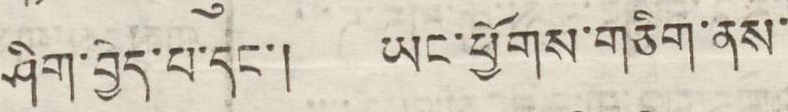ཤིག་བྱེད་པ་དང་། ཡང་ཕྱོགས་གཅིག་ནས་
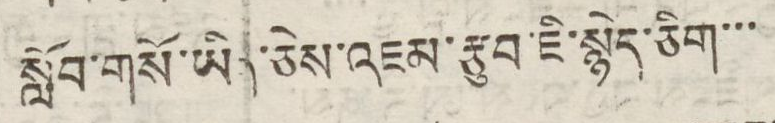སློབ་གསོ་ཡིན་ཅེས་འཇམ་རྩུབ་ཇི་སྙེད་ཅིག་་་
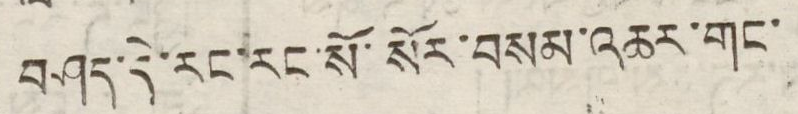བཤད་ཏེ་རང་རང་སོ་སོར་བསམ་འཆར་གང་
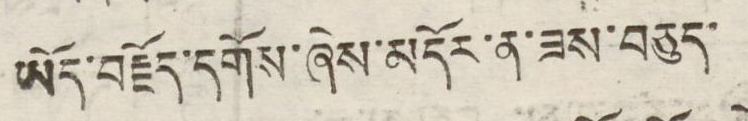ཡོད་བརྗོད་དགོས་ཞེས་མདོར་ན་ཟས་བཅུད་
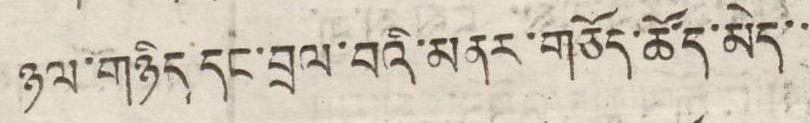ཉལ་གཉིད་དང་བྲལ་བའི་མནར་གཅོད་ཚོད་མེད་་
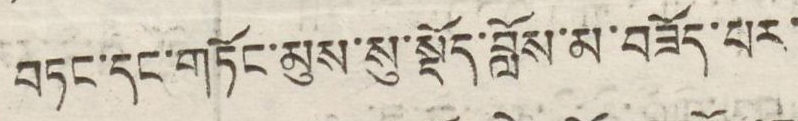བཏང་དང་གཏོང་མུས་སུ་སྡོད་བློས་མ་བཟོད་པར་
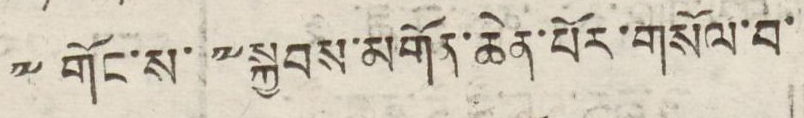༸གོང་ས་༸སྐྱབས་མགོན་ཆེན་པོར་གསོལ་བ་
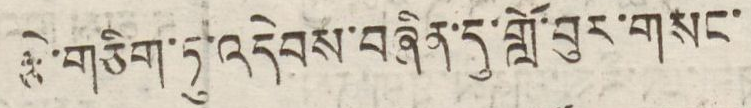རྩེ་གཅིག་ཏུ་འདེབས་བཞིན་གློ་བུར་གསང་
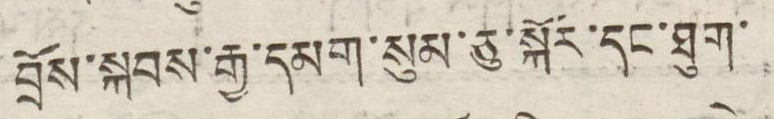བྲོས་སྐབས་རྒྱ་དམག་སུམ་ཅུ་སྐོར་དང་ཐུག་
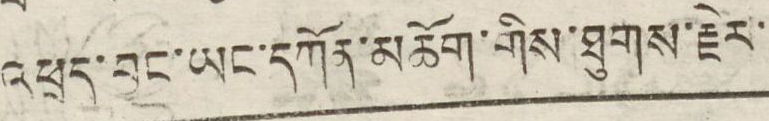འཕྲད་བྱང་ཡང་དཀོན་མཆོག་གིས་ཐུགས་རྗེར་
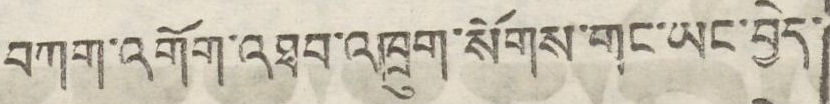བཀག་འགོག་འཐབ་འཁྲུག་སོགས་གང་ཡང་བྱེད་
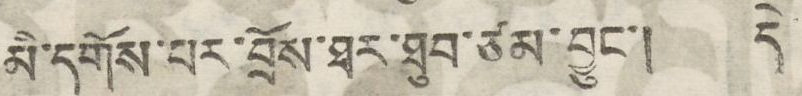མི་དགོས་པར་བྲོས་ཐར་ཐུབ་ཙམ་བྱུང་། དེ
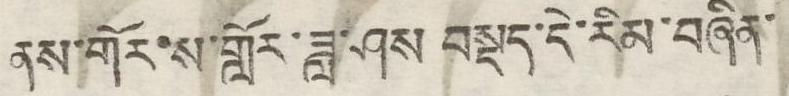ནས་གོར་ས་གློར་ཟླ་ཤས བསྡད་དེ་རིམ་བཞིན་
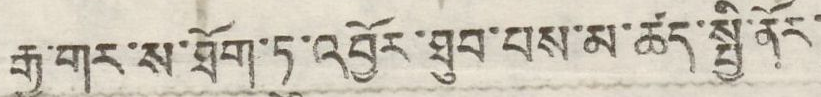རྒྱ་གར་ས་ཐོག་ཏུ་འབྱོར་ཐུབ་པས་མ་ཚད་སྤྱི་ནོར་
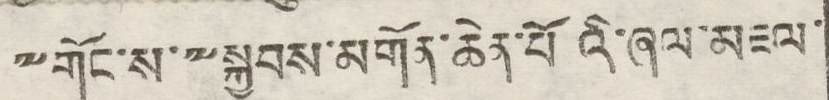༸གོང་ས་༸སྐྱབས་མགོན་ཆེན་པོའི་ཞལ་མཇལ་
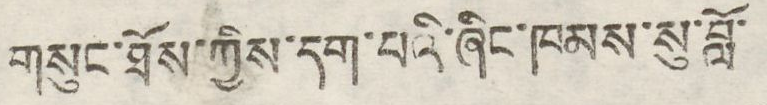གསུང་ཐོས་ཀྱིས་དག་པའི་ཞིང་ཁམས་སུ་བློ་
